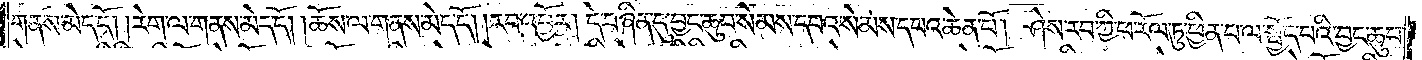གནས་མེད་དོ། །རེག་ལ་གནས་མེད་དོ། །ཆོས་ལ་གནས་མེད་དོ། །རབ་འབྱོར། དེ་བཞིན་དུ་བྱང་ཆུབ་སེམས་དཔའ་སེམས་དཔའ་ཆེན་པོ། ཤེས་རབ་ཀྱི་ཕ་རོལ་ཏུ་ཕྱིན་པ་ལ་སྤྱོད་པའི་བྱང་ཆུབ་
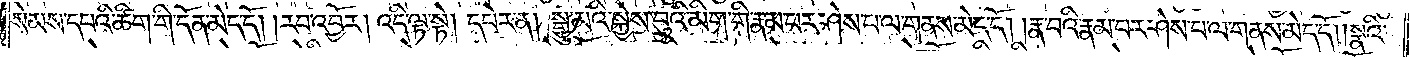སེམས་དཔའི་ཚིག་གི་དོན་མེད་དོ། །རབ་འབྱོར། འདི་ལྟ་སྟེ། དཔེར་ན། སྒྱུ་མའི་སྐྱེས་བུ་མིག་གི་རྣམ་པར་ཤེས་པ་ལ་གནས་མེད་དོ། །རྣ་བའི་རྣམ་པར་ཤེས་པ་ལ་གནས་མེད་དོ། །སྣའི་
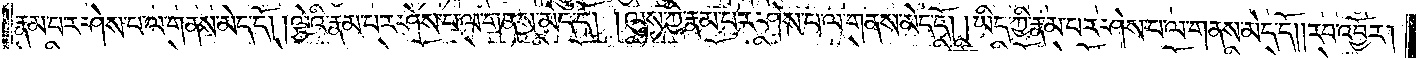རྣམ་པར་ཤེས་པ་ལ་གནས་མེད་དོ། །ལྕེའི་རྣམ་པར་ཤེས་པ་ལ་གནས་མེད་དོ། །ལུས་ཀྱི་རྣམ་པར་ཤེས་པ་ལ་གནས་མེད་དོ། །ཡིད་ཀྱི་རྣམ་པར་ཤེས་པ་ལ་གནས་མེད་དོ། །རབ་འབྱོར།
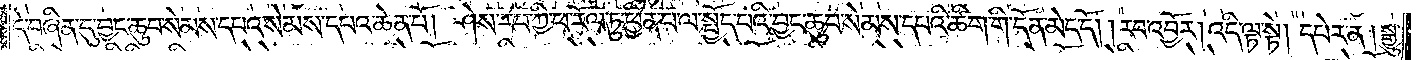དེ་བཞིན་དུ་བྱང་ཆུབ་སེམས་དཔའ་སེམས་དཔའ་ཆེན་པོ། ཤེས་རབ་ཀྱི་ཕ་རོལ་ཏུ་ཕྱིན་པ་ལ་སྤྱོད་པའི་བྱང་ཆུབ་སེམས་དཔའི་ཚིག་གི་དོན་མེད་དོ། །རབ་འབྱོར། འདི་ལྟ་སྟེ། དཔེར་ན། སྒྱུ་
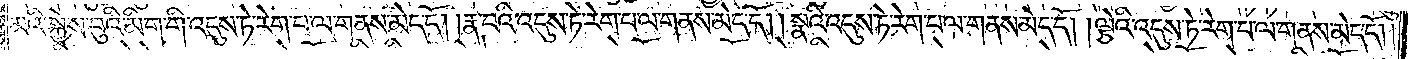མའི་སྐྱེས་བུའི་མིག་གི་འདུས་ཏེ་རེག་པ་ལ་གནས་མེད་དོ། །རྣ་བའི་འདུས་ཏེ་རེག་པ་ལ་གནས་མེད་དོ། །སྣའི་འདུས་ཏེ་རེག་པ་ལ་གནས་མེད་དོ། །ལྕེའི་འདུས་ཏེ་རེག་པ་ལ་གནས་མེད་དོ།
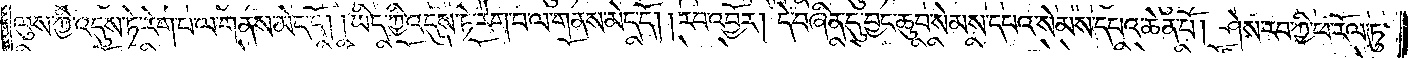ལུས་ཀྱི་འདུས་ཏེ་རེག་པ་ལ་གནས་མེད་དོ། །ཡིད་ཀྱི་འདུས་ཏེ་རེག་པ་ལ་གནས་མེད་དོ། །རབ་འབྱོར། དེ་བཞིན་དུ་བྱང་ཆུབ་སེམས་དཔའ་སེམས་དཔའ་ཆེན་པོ། ཤེས་རབ་ཀྱི་ཕ་རོལ་ཏུ་
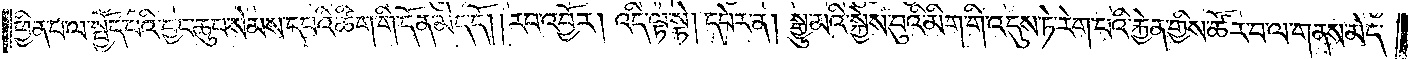ཕྱིན་པ་ལ་སྤྱོད་པའི་བྱང་ཆུབ་སེམས་དཔའི་ཚིག་གི་དོན་མེད་དོ། །རབ་འབྱོར། འདི་ལྟ་སྟེ། དཔེར་ན། སྒྱུ་མའི་སྐྱེས་བུའི་མིག་གི་འདུས་ཏེ་རེག་པའི་རྐྱེན་གྱིས་ཚོར་བ་ལ་གནས་མེད་
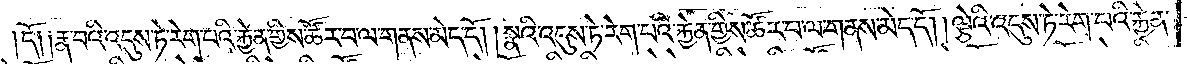དོ། །རྣ་བའི་འདུས་ཏེ་རེག་པའི་རྐྱེན་གྱིས་ཚོར་བ་ལ་གནས་མེད་དོ། །སྣའི་འདུས་ཏེ་རེག་པའི་རྐྱེན་གྱིས་ཚོར་བ་ལ་གནས་མེད་དོ། །ལྕེའི་འདུས་ཏེ་རེག་པའི་རྐྱེན་
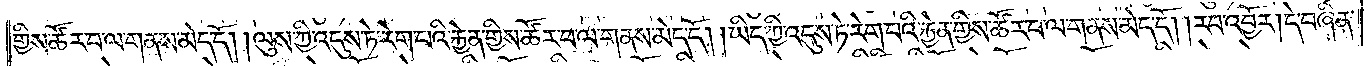གྱིས་ཚོར་བ་ལ་གནས་མེད་དོ། །ལུས་ཀྱི་འདུས་ཏེ་རེག་པའི་རྐྱེན་གྱིས་ཚོར་བ་ལ་གནས་མེད་དོ། །ཡིད་ཀྱི་འདུས་ཏེ་རེག་པའི་རྐྱེན་གྱིས་ཚོར་བ་ལ་གནས་མེད་དོ། །རབ་འབྱོར། དེ་བཞིན་
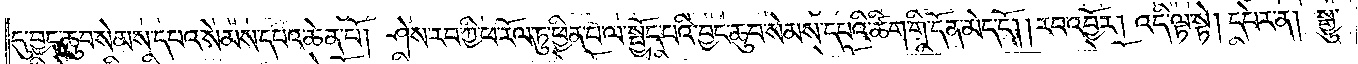དུ་བྱང་ཆུབ་སེམས་དཔའ་སེམས་དཔའ་ཆེན་པོ། ཤེས་རབ་ཀྱི་ཕ་རོལ་ཏུ་ཕྱིན་པ་ལ་སྤྱོད་པའི་བྱང་ཆུབ་སེམས་དཔའི་ཚིག་གི་དོན་མེད་དོ། །རབ་འབྱོར། འདི་ལྟ་སྟེ། དཔེར་ན། སྒྱུ་
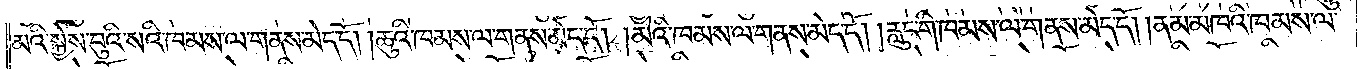མའི་སྐྱེས་བུའི་སའི་ཁམས་ལ་གནས་མེད་དོ། །ཆུའི་ཁམས་ལ་གནས་མེད་དོ། །མེའི་ཁམས་ལ་གནས་མེད་དོ། །རླུང་གི་ཁམས་ལ་གནས་མེད་དོ། །ནམ་མཁའི་ཁམས་ལ་
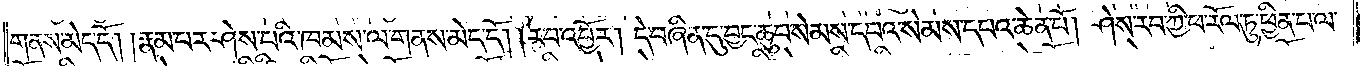གནས་མེད་དོ། །རྣམ་པར་ཤེས་པའི་ཁམས་ལ་གནས་མེད་དོ། །རབ་འབྱོར། དེ་བཞིན་དུ་བྱང་ཆུབ་སེམས་དཔའ་སེམས་དཔའ་ཆེན་པོ། ཤེས་རབ་ཀྱི་ཕ་རོལ་ཏུ་ཕྱིན་པ་ལ་
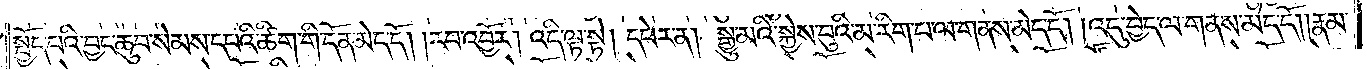སྤྱོད་པའི་བྱང་ཆུབ་སེམས་དཔའི་ཚིག་གི་དོན་མེད་དོ། །རབ་འབྱོར། འདི་ལྟ་སྟེ། དཔེར་ན། སྒྱུ་མའི་སྐྱེས་བུའི་མ་རིག་པ་ལ་གནས་མེད་དོ། །འདུ་བྱེད་ལ་གནས་མེད་དོ། །རྣམ་
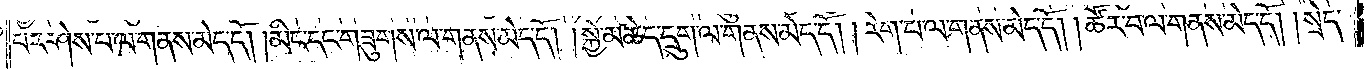པར་ཤེས་པ་ལ་གནས་མེད་དོ། །མིང་དང་གཟུགས་ལ་གནས་མེད་དོ། །སྐྱེ་མཆེད་དྲུག་ལ་གནས་མེད་དོ། །རེག་པ་ལ་གནས་མེད་དོ། །ཚོར་བ་ལ་གནས་མེད་དོ། །སྲེད་
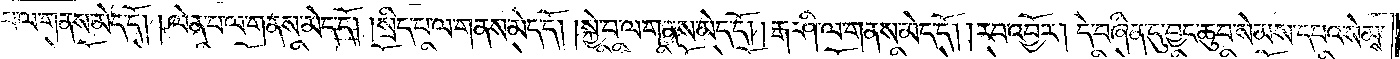པ་ལ་གནས་མེད་དོ། །ལེན་པ་ལ་གནས་མེད་དོ། །སྲིད་པ་ལ་གནས་མེད་དོ། །སྐྱེ་བ་ལ་གནས་མེད་དོ། །རྒ་ཤི་ལ་གནས་མེད་དོ། །རབ་འབྱོར། དེ་བཞིན་དུ་བྱང་ཆུབ་སེམས་དཔའ་སེམས་
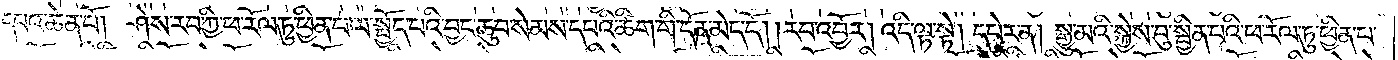དཔའ་ཆེན་པོ། ཤེས་རབ་ཀྱི་ཕ་རོལ་ཏུ་ཕྱིན་པ་ལ་སྤྱོད་པའི་བྱང་ཆུབ་སེམས་དཔའི་ཚིག་གི་དོན་མེད་དོ། །རབ་འབྱོར། འདི་ལྟ་སྟེ། དཔེར་ན། སྒྱུ་མའི་སྐྱེས་བུ་སྦྱིན་པའི་ཕ་རོལ་ཏུ་ཕྱིན་པ་
